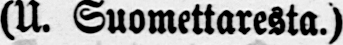(U. Suomettaresta.)
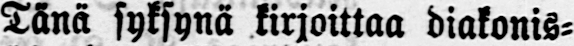Tänä syksynä kirjoittaa diakonis-
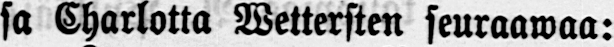sa Charlotta Wettersten seuraawaa:
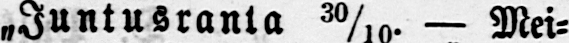„Juntusranta 30/10 — Mei-
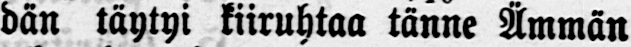dän täytyi kiiruhtaa tänne Ämmän
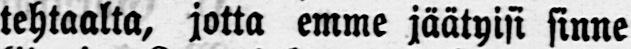tehtaalta, jotta emme jäätyisi sinne
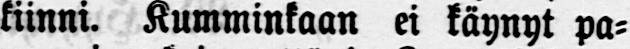kiinni. Kumminkaan ei käynyt pa-
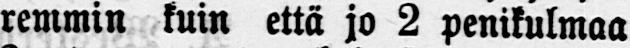remmin kuin että jo 2 penikulmaa
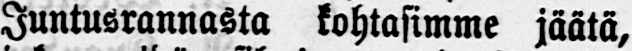Juntusrannasta kohtasimme jäätä,
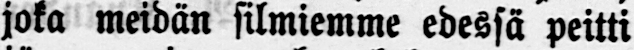joka meidän silmiemme edessä peitti
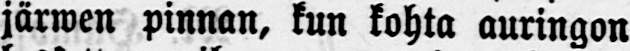järwen pinnan, kun kohta auringon
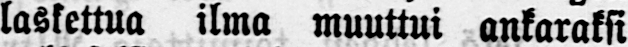laskettua ilma muuttui ankaraksi
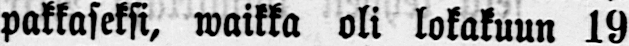pakkaseksi, waikka oli lokakuun 19
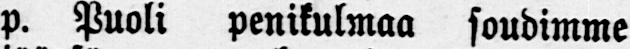p. Puoli penikulmaa soudimme
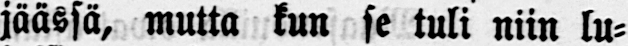jäässä, mutta kun se tuli niin lu-
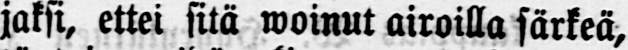jaksi, ettei sitä woinut airoilla särkeä,
